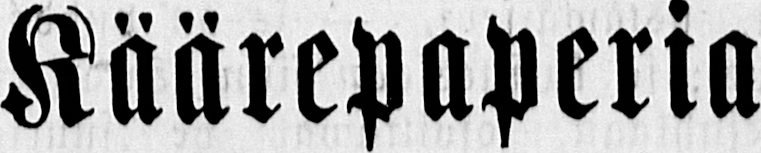Käärepaperia
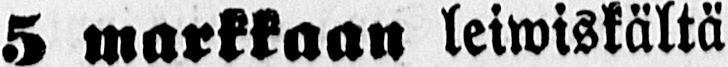5 markkaan leiwiskältä
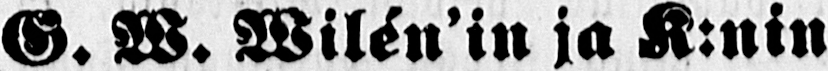G. W. Wilé n'in ja K:nin
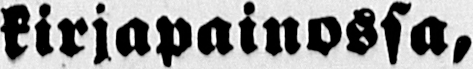kirjapainossa,
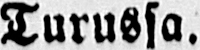Turussa.
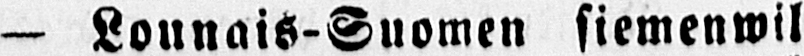— Lounais-Suomen siemenwil-
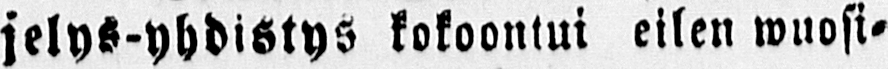jelys-yhdistys kokoontui eilen wuosi-
